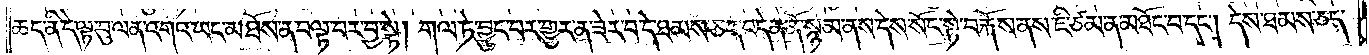ཆད་ནི་དེ་ལྟ་བུ་ལན་འགའ་ཡང་མཐོས་ན་བལྟ་བར་བྱ་སྟེ། གལ་ཏེ་བྱུང་བར་གྱུར་ན་ཟེར་བ་དེ་ཐམས་ཅད་བདེན་ནོ་སྙམ་ནས་དེས་སོང་སྟེ་བརྐོས་ནས་ཇི་ཙམ་ན་མཐོང་བ་དང༌། དེས་ཐམས་ཅད་
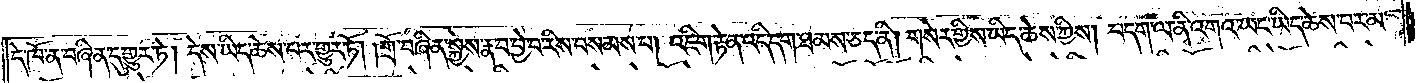དེ་ཁོ་ན་བཞིན་དུ་གྱུར་ཏེ། དེས་ཡིད་ཆེས་པར་གྱུར་ཏོ། །གྲོ་བཞིན་སྐྱེས་རྣ་བ་བྱེ་བ་རིས་བསམས་པ། འཇིག་རྟེན་འདི་དག་ཐམས་ཅད་ནི། གསེར་གྱིས་ཡིད་ཆེས་ཀྱིས། བདག་ལ་ནི་འགའ་ཡང་ཡིད་ཆེས་པར་མ་
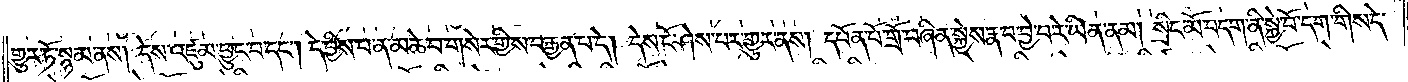གྱུར་ཏོ་སྙམ་ནས། དེས་འཛུམ་ཕྱུང་བ་དང༌། དེ་བྱིས་པ་ན་མཆེ་བ་གསེར་གྱིས་བརྒྱན་པ་དེ། དེས་ངོ་ཤེས་པར་གྱུར་ནས། དཔོན་པོ་གྲོ་བཞིན་སྐྱེས་རྣ་བ་བྱེ་བ་རེ་ཡིན་ནམ། སྲིང་མོ་བདག་ནི་སྐྱེ་བོ་དག་གིས་དེ་
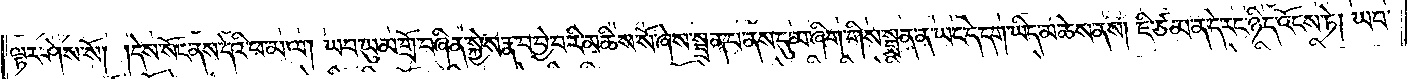ལྟར་ཤེས་སོ། །དེས་སོང་ནས་དེའི་ཕ་མ་ལ། ཡབ་ཡུམ་གྲོ་བཞིན་སྐྱེས་རྣ་བ་བྱེ་བ་རི་མཆིས་སོ་ཞེས་སྦྲན་པ་ནས་དུ་མ་ཞིག་གིས་སྦྲན་ན་ཡང་དེ་དག་ཡིད་མ་ཆེས་ནས། ཇི་ཙམ་ན་དེ་རང་ཉིད་འོངས་ཏེ། ཡབ་
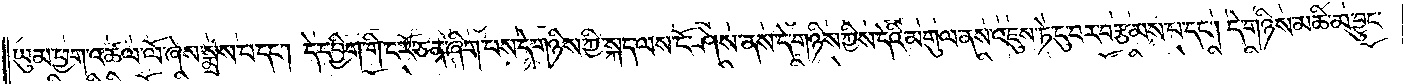ཡུམ་ཕྱག་འཚལ་ལོ་ཞེས་སྨྲས་པ་དང༌། དེ་དབྱིག་གི་ང་རོ་ཅན་ཞིག་པས་དེ་གཉིས་ཀྱི་སྐད་ལས་ངོ་ཤེས་ནས་དེ་གཉིས་ཀྱིས་དེའི་མགུལ་ནས་འཇུས་ཏེ་ངུ་བར་བརྩམས་པ་དང༌། དེ་གཉིས་མཆི་མ་བྱུང་
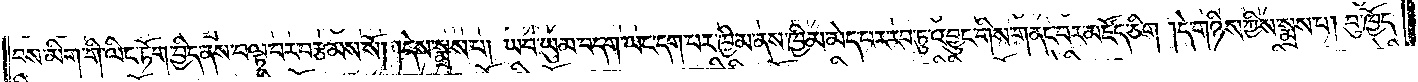བས་མིག་གི་ལིང་ཏོག་བྱིད་ནས་བལྟ་བར་བརྩམས་སོ། །དེས་སྨྲས་པ། ཡབ་ཡུམ་བདག་ཡང་དག་པར་ཁྱིམ་ནས་ཁྱིམ་མེད་པར་རབ་ཏུ་འབྱུང་གིས་གནང་བར་མཛོད་ཅིག །དེ་གཉིས་ཀྱིས་སྨྲས་པ། བུ་ཁྱོད་
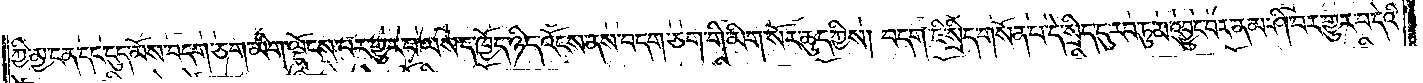ཀྱི་མྱ་ངན་དང་དུད་མོས་བདག་ཅག་མིག་ལྡོངས་པར་གྱུར་པ་ལས་ད་ཁྱོད་ཉིད་འོངས་ནས་བདག་ཅག་གི་མིག་སོར་ཆུད་ཀྱིས། བདག་ཇི་སྲིད་གསོན་པ་དེ་སྲིད་དུ་རབ་ཏུ་མ་འབྱུང་བར་ནམ་ཤི་བར་གྱུར་བ་དེའི་
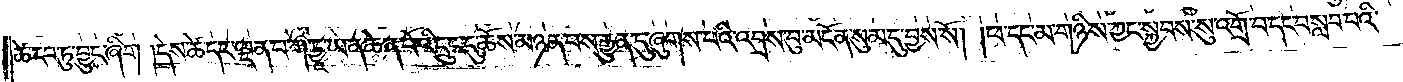ཚེ་རབ་ཏུ་བྱུང་ཞིག །དེས་ཚེ་དང་ལྡན་པ་ཀ་ཏྱཱ་ཡ་ན་ཆེན་པོའི་དྲུང་དུ་ཆོས་མཉན་པས་རྒྱུན་དུ་ཞུགས་པའི་འབྲས་བུ་མངོན་སུམ་དུ་བྱས་སོ། །ཕ་དང་མ་གཉིས་ཀྱང་སྐྱབས་སུ་འགྲོ་བ་དང་བསླབ་པའི་
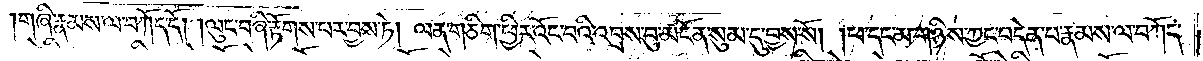གཞི་རྣམས་ལ་བཀོད་དོ། །ལུང་བཞི་རྟོགས་པར་བྱས་ཏེ། ལན་གཅིག་ཕྱིར་འོང་བའི་འབྲས་བུ་མངོན་སུམ་དུ་བྱས་སོ། །ཕ་དང་མ་གཉིས་ཀྱང་བདེན་པ་རྣམས་ལ་བཀོད་
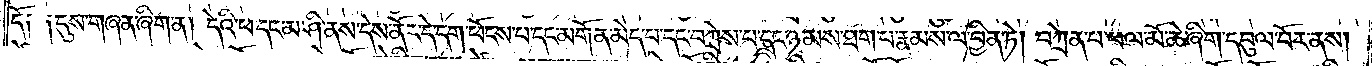དོ༏ ༏  དུས་གཞན་ཞིག་ན། དེའི་ཕ་དང་མ་ཤི་ནས་དེས་ནོར་དེ་དག་ཕོངས་པ་དང་མགོན་མེད་པ་དང་བཀྲེས་པ་དང་ཉམས་ཐག་པ་རྣམས་ལ་བྱིན་ཏེ། བཀྲེན་པ་ཕལ་མོ་ཆེ་ཞིག་དབུལ་བོར་ནས།
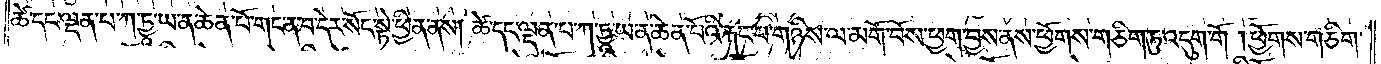ཚེ་དང་ལྡན་པ་ཀ་ཏྱཱ་ཡ་ན་ཆེན་པོ་གང་ན་བ་དེར་སོང་སྟེ་ཕྱིན་ནས། ཚེ་དང་ལྡན་པ་ཀ་ཏྱཱ་ཡ་ན་ཆེན་པོའི་རྐང་པ་གཉིས་ལ་མགོ་བོས་ཕྱག་བྱས་ནས་ཕྱོགས་གཅིག་ཏུ་འདུག་གོ །ཕྱོགས་གཅིག་
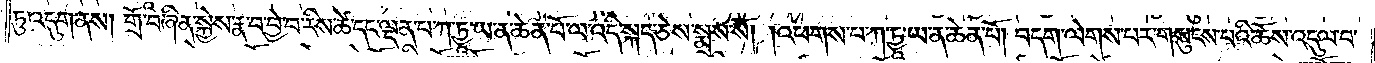ཏུ་འདུག་ནས། གྲོ་བཞིན་སྐྱེས་རྣ་བ་བྱེ་བ་རིས་ཚེ་དང་ལྡན་པ་ཀ་ཏྱཱ་ཡ་ན་ཆེན་པོ་ལ་འདི་སྐད་ཅེས་སྨྲས་སོ། །འཕགས་པ་ཀ་ཏྱཱ་ཡ་ན་ཆེན་པོ། བདག་ལེགས་པར་གསུངས་པའི་ཆོས་འདུལ་བ་
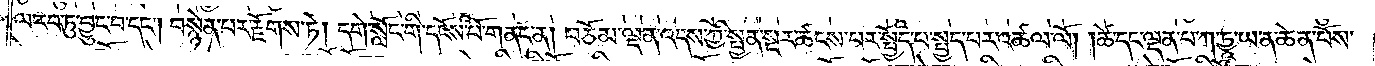ལ་རབ་ཏུ་བྱུང་བ་དང༌། བསྙེན་པར་རྫོགས་ཏེ། དགེ་སློང་གི་དངོས་པོ་གནང་ན། བཅོམ་ལྡན་འདས་ཀྱི་སྤྱན་སྔར་ཚངས་པར་སྤྱོད་པ་སྤྱད་པར་འཚལ་ལོ། །ཚེ་དང་ལྡན་པ་ཀ་ཏྱཱ་ཡ་ན་ཆེན་པོས་
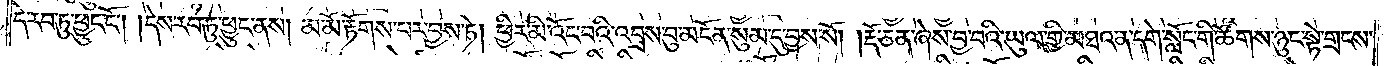དེ་རབ་ཏུ་ཕྱུང་ངོ༌། །དེས་རབ་ཏུ་ཕྱུང་ནས། མ་མོ་རྟོགས་པར་བྱས་ཏེ། ཕྱིར་མི་འོང་བའི་འབྲས་བུ་མངོན་སུམ་དུ་བྱས་སོ། །རྡོ་ཅན་ཞེས་བྱ་བའི་ཡུལ་གྱི་མཐའ་ན་དགེ་སློང་གི་ཚོགས་ཉུང་སྟེ་གྲངས་
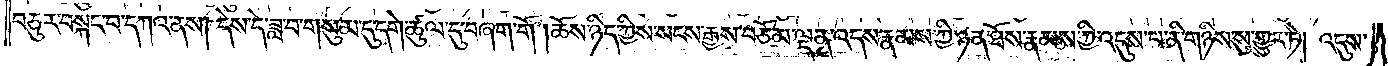བཅུར་བསྐང་བ་དཀའ་ནས། དེས་དེ་ཟླ་བ་གསུམ་དུ་དགེ་ཚུལ་དུ་བཞག་གོ །ཆོས་ཉིད་ཀྱིས་སངས་རྒྱས་བཅོམ་ལྡན་འདས་རྣམས་ཀྱི་ཉན་ཐོས་རྣམས་ཀྱི་འདུས་པ་ནི་གཉིས་སུ་གྱུར་ཏེ། འདུས་
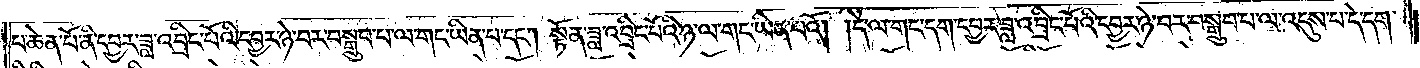པ་ཆེན་པོ་ནི་དབྱར་ཟླ་འབྲིང་པོའི་དབྱར་ཉེ་བར་བསྒྲུབ་པ་ལ་གང་ཡིན་པ་དང༌། སྟོན་ཟླ་འབྲིང་པོའི་ཉ་ལ་གང་ཡིན་པའོ། །དེ་ལ་གང་དག་དབྱར་ཟླ་འབྲིང་པོའི་དབྱར་ཉེ་བར་བསྒྲུབ་པ་ལ་འདུས་པ་དེ་དག་
